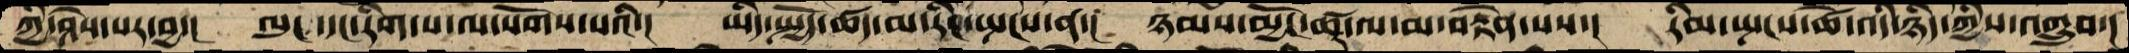ཀྱི་ཤེས་པར་བྱ་།  ལུང་དང་རིག་པ་ལ་སོགས་པའི་།  ཡིད་སྤྱོད་ཚད་མ་རིང་སྤངས་ན་།  ཉམས་མྱོང་ཚ་ལ་མ་བརྟེན་པས་།  རིམ་སྤངས་ཚེ་འདི་ཉིད་ཀྱིས་འགྲུབ་།
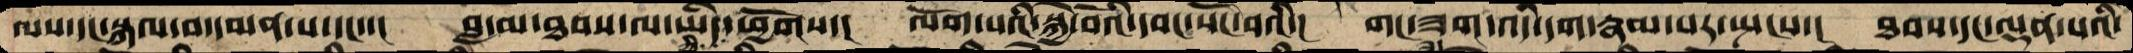ལས་དང་སྐལ་བ་དམན་པ་དང་་།  བླ་མ་ཐབས་ལ་ཡིད་ཀྱི་ཕྱོགས་།  ལོག་པའི་སྐྱེ་བོའི་དབང་སོང་བའི་།  གང་ཟག་འདི་དག་རྣམ་པར་སྤངས་།  ཐབས་དང་ལྡན་པའི་
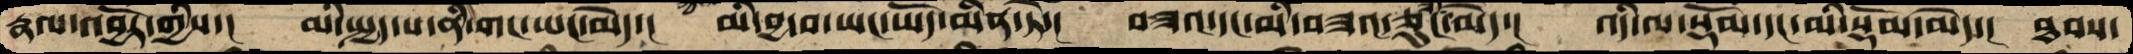རྣལ་འབྱོར་གྱིས་།  མི་སྤྱད་པ་ནི་གང་ཡང་མེད་།  མི་བྱ་བ་ཡང་ཡོད་མིན་ཏེ་།  བཟའ་དང་མི་བཟའ་ཅུང་ཟད་མེད་།  འདི་ལ་སྡོམ་དང་མི་སྡོམ་མེད་།  ཐབས་
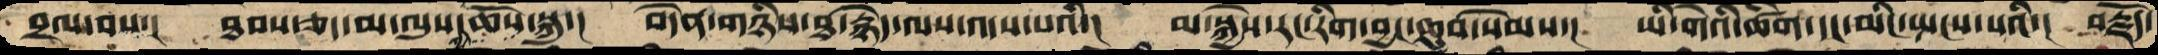བྲལ་བས་།  ཐབས་ཅད་མ་ལུས་ཆོས་ཀྱི་སྐུ་།  བདེན་གཉིས་ཐ་སྙེད་ལས་འདས་པའི་།  མ་སྐྱེས་རང་རིག་བྱང་ཆུབ་སེམས་།  ཡི་གེའི་ཚིག་དང་མིང་སྤངས་པའི་།  བརྗོད་
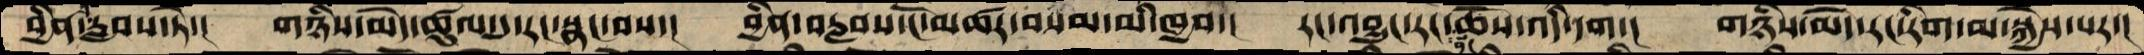བྱིན་རླབས་ཏེ་།  གཉིས་མེད་ཚུལ་དུ་རང་སྣང་བས་།  བྱིན་བརླབས་ངོ་མཚར་བསམ་མི་ཁྱབ་།  རང་འབྱུང་རང་སྣང་ཆོས་འདི་དག་།  གཉིས་མེད་རང་རིག་མ་སྐྱེས་པར་།
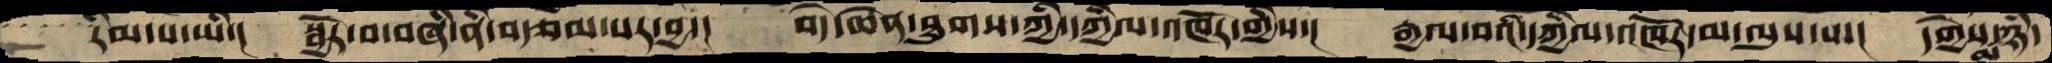རིམ་པ་ཡི་།  སྦྱོར་བ་བཞི་ནི་བརྩམ་པར་བྱ་།  བདེ་ཆེན་ཐུགས་ཀྱི་དཀྱིལ་འཁོར་གྱིས་།  རྒྱལ་བའི་དཀྱིལ་འཁོར་མ་ལུས་པ་།  དགྱེས་མ་ཉིད་
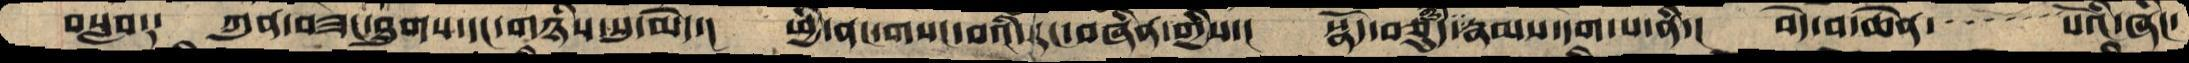བསླབ༑  ཀུན་བཟང་ཐུགས་དང་གཉིས་སུ་མེད་།  ཕྱི་ནང་གསང་བའི་རང་བཞིན་གྱིས་།  སྣོད་བཅུད་རྒྱུ་རྣམས་དག་པ་ནི་།  བདེ་བ་ཆེན་་་་་་་པོའི་ཞིང་
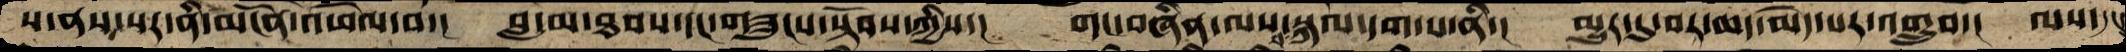ས་ནས་པར་ནི་མངོན་འཕེལ་བ་།  བླ་མ་ཐབས་དང་གཟུངས་སྟོབས་ཀྱིས་།  གང་བཞིན་ལས་བསྐུལ་དག་པ་ནི་།  མྱུར་དུ་བར་ཆད་མེད་པར་འགྲུབ་། ལས་དང་
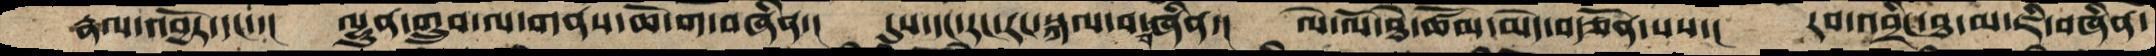རྣལ་འབྱོར་དང་་།  ལྷུན་གྲུབ་ལ་གནས་ཆོ་ག་བཞིན་།   དུས་དང་རང་རང་སྐལ་བ་བཞིན་།  ལེ་ལོ་ཐེ་ཚོམ་མེད་བརྩོན་པས་།  རང་འབྲིང་ཐ་མ་ཇི་བཞིན་
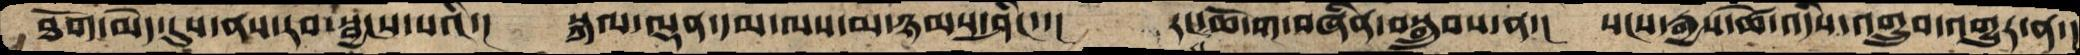ཐོག་མེད་དུས་ནས་རབ་སྦྱངས་པའི་།  སྐལ་ལྡན་དམ་ལས་མ་ཉམས་ཤིང་་།   རང་ཆོ་ག་བཞིན་བསྒྲུབས་ན་།  སངས་རྒྱས་ཚེ་འདིས་འགྲུབ་འགྱུར་ན་།
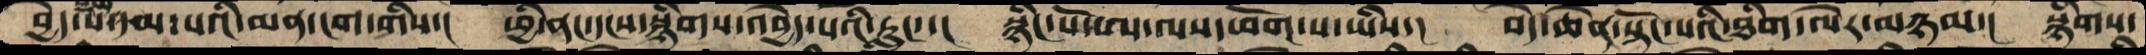བྱེད་པ་དམ་པའི་མན་ངག་གིས་།  ཕྱི་ནང་དངས་སྙིགས་འབྱེད་པའི་རླུང་་།  སྙིང་པོ་ཨ་ལས་ཕོག་པ་ཡིས་།  བདེ་ཆེན་སྟོང་པའི་ཐིག་ལེར་མཉམ་།  སྙིགས་
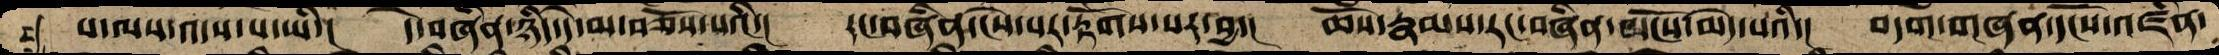པ་ལས་འདས་པ་ཡི་།  དེ་བཞིན་ཉིད་དེ་མ་བཅོས་པའི་།  རང་བཞིན་ངེས་པར་རྟོགས་པར་བྱ་།  ཆོས་རྣམས་རང་བཞིན་ ངོས་མེད་པའི་།  བདག་གཞན་དངོས་འཛིན་
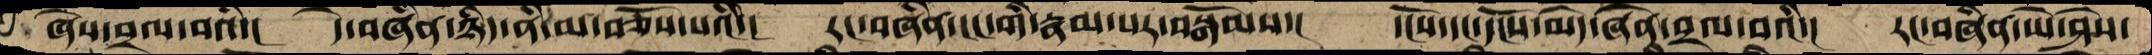ཞེས་བྲལ་བའི་།  དེ་བཞིན་ཉིད་ནི་མ་བཅོས་པའི་།  རང་བཞིན་ངང་གི་རྣམ་པར་བསྒོམས་།  དངོས་དང་དངོས་མེད་ཞེན་བྲལ་བའི་།  རང་བཞིན་ཡེ་ཤེས་
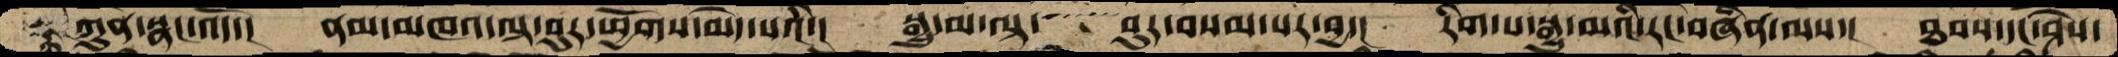ཀུན་སྣང་འདོད་།  ནམ་མཁའ་ལྟ་བུར་ཕྱོགས་མེད་པའི་།  སྒྱུ་མ་ལྟ་་་་་བུར་བསམ་པར་བྱ་།  རིག་པ་སྒྱུ་མའི་རང་བཞིན་ལས་།  ཐབས་དང་ཤེས་
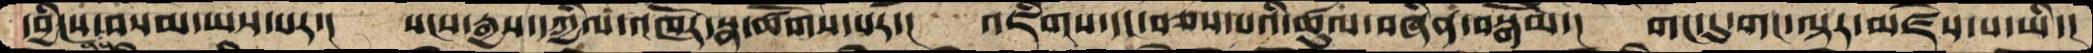དབྱིངས་ནས་བསམ་ཡས་པར་།  སངས་རྒྱས་དཀྱིལ་འཁོར་སྣ་ཚོགས་པར་།  འཇིགས་དང་བཅས་པའི་ཚུལ་བཞིན་བསྒོམ་།  གང་དུ་གང་ལྟར་མཛེས་པ་ཡི་།
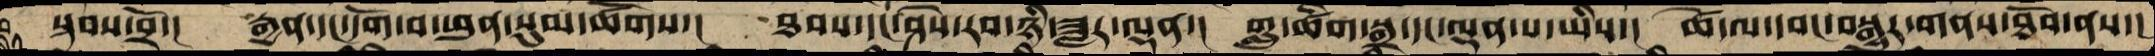སྟབས་བྲོ་།  རྒྱན་དང་དགེ་བ་ཕུན་སུམ་ཚོགས་།  ཐབས་དང་ཤེས་རབ་ཉི་ཟླར་ལྡན་།  གླུ་ཚིག་སྒྲ་དང་ལྡན་པ་ཡིས་།  ཚེ་ལ་དབང་བསྒྱུར་གནས་ཐོབ་ནས་།
